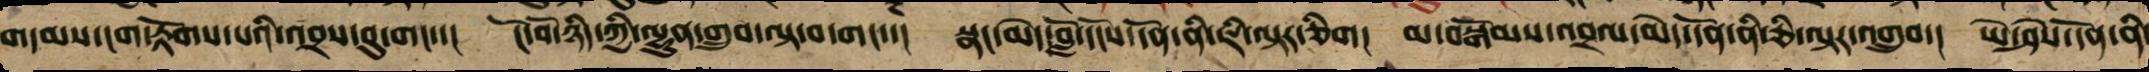གདམས་ངག་རྟོགས་པའི་འབྲས་བུ་གང་་། ངོ་བོ་ཉིད་ཀྱང་ལྷུན་གྲུབ་བལྟ་བ་གང་་། སྣང་མེད་བློ་དངོས་དོན་ནི་ཅི་ལྟར་གཅིག། མ་བསྒོམས་འབྲལ་མེད་དོན་ནི་ཇི་ལྟར་འགྲུབ་། ཡེ་ཤེས་དོན་ནི་
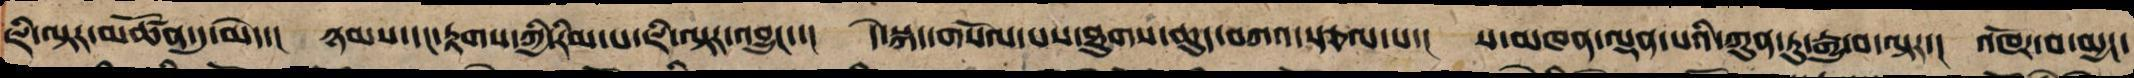ཇི་ལྟར་མཚོན་དུ་མེད་། ཉམས་དང་རྟགས་ཀྱི་རིམ་པ་ཇི་ལྟར་འབྱུང་་། དེ་སྐད་གསོལ་པས་ཐུགས་ཆུད་བཀའ་སྩལ་པ་། ས་མཁན་ལྡན་པའི་ཀུན་ཏུ་རྒྱུ་བ་ལྟར་། འཁོར་བ་མྱང་
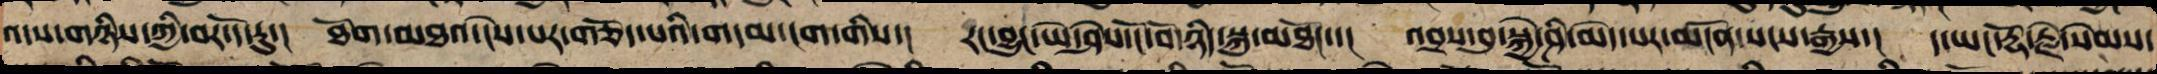འདས་གཉིས་ཀྱི་བར་དོ་རུ་། ཐོག་མཐའ་ངེས་པར་གཅོད་པའི་གདམས་ངག་གིས་། རང་བྱུང་ཡེ་ཤེས་ངོ་བོ་ཉིད་དུ་རྟོགས་། འབྲས་བུ་སྐྱེ་ཤི་མེད་པར་མངོན་སངས་རྒྱས་། ད་ཡང་རྡོ་རྗེ་སེམས་
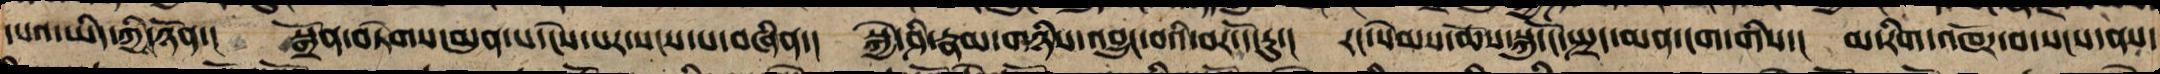དཔའ་ཡིད་ཀྱིས་ཉོན་། སྒྲོན་བཏགས་མུན་པ་ངེས་པར་སངས་པ་བཞིན་། སྐྱེ་ཤི་རྣམ་གཉིས་འབྱུང་བའི་བར་དོ་རུ་། རང་སེམས་ཆོས་སྐུ་ངོ་སྤྲད་མན་ངག་གིས་། མ་རིག་འཁོར་བ་སངས་ནས་
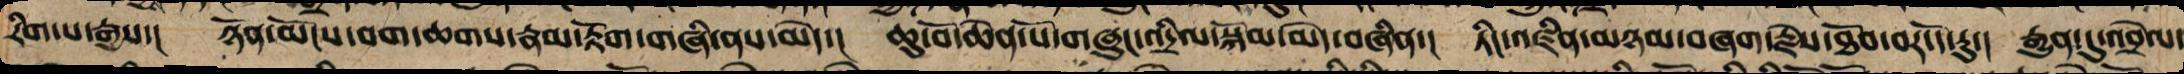རིག་པ་རྒྱས་། ཉོན་མོངས་བག་ཆགས་རྣམ་རྟོག་གཞི་ནས་མེད་། ཆུ་བོ་ཆེན་པོ་གཞུང་འདྲིལ་ཉམས་མེད་བཞིན་། ཏིང་འཛིན་མཉམ་བཞག་རྗེས་ཐོབ་བར་དོ་རུ་། རྒྱུན་དུ་འབྲེལ་
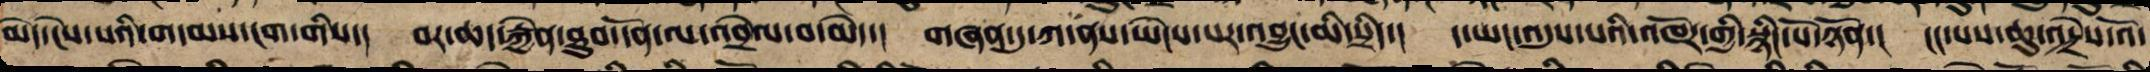མེད་ངེས་པའི་གདམས་ངག་གིས་། བར་ཆད་རྐྱེན་ཐུབ་དོན་ལ་འབྲེལ་བ་མེད་། གཞན་དུ་ཀ་ནས་ཡེངས་པ་འབྱུང་མི་སྲིད་། ད་ཡང་འདུས་པའི་འཁོར་གྱི་སྙིང་པོ་ཉོན་། ངང་པས་ཆུ་འདྲེས་འོ་
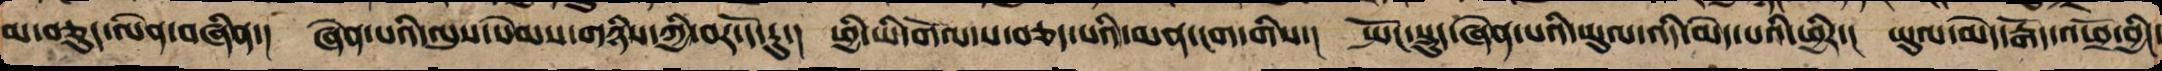མ་བཅུད་ལེན་བཞིན་། ཞེན་པའི་ལུས་སེམས་གཉིས་ཀྱི་བར་དོ་རུ་། ཕྱི་ཡི་གོལ་ས་བཅད་པའི་མན་ངག་གིས་། སྤང་སྡུད་ཞེན་པའི་ཡུལ་འདི་མེད་པའི་ཕྱིར་། ཡུལ་མེད་རྒོད་འཕྲོ་བྱིང་
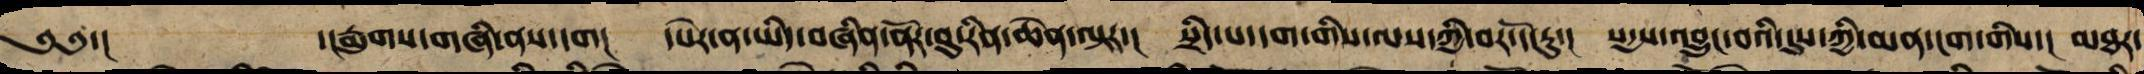༄༅་།  ་།རྨུགས་གཞི་ནས་དག། དཔེར་ན་ཡིད་བཞིན་ནོར་བུ་རིན་ཆེན་ལྟར་། སྲིད་པ་དག་གི་ལས་ཀྱི་བར་དོ་རུ་། སདྱས་འབྱུང་བའི་དུས་ཀྱི་མན་ངག་གིས་། མཐར་
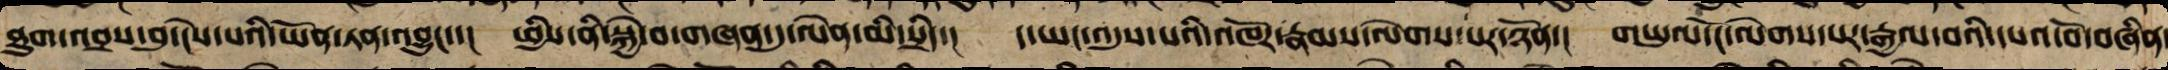ཐུག་འབྲས་བུ་ངེས་པའི་ཡོན་ཏན་འབྱུང་། ཕྱིས་ནི་སྐྱེ་བ་གཞན་དུ་ལེན་མི་སྲིད་། ད་ཡང་འདུས་པའི་འཁོར་རྣམས་ལེགས་པར་ཉོན་། གཡུལ་ངོ་ལེགས་པར་རྒྱལ་བའི་དཔའ་བོ་བཞིན་
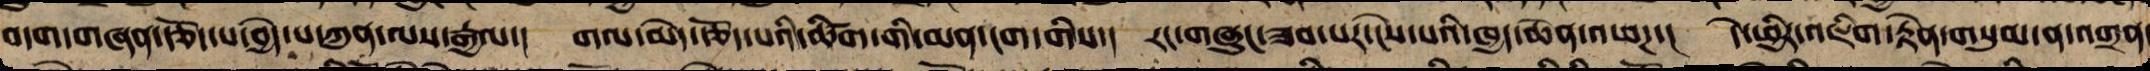བདག་གཞན་རྩོད་པ་བྱེད་པ་ཀུན་ལས་རྒྱལ་། གལ་མེད་རྩོད་པའི་ཚིག་གིས་མན་ངག་གི་། རང་གཞུང་ཟབ་པར་ངེས་པའི་ཁྱད་ཆེན་འཕཌ་། དེ་ཕྱིར་འཇིག་རྟེན་གསུམ་ན་འགྲན་
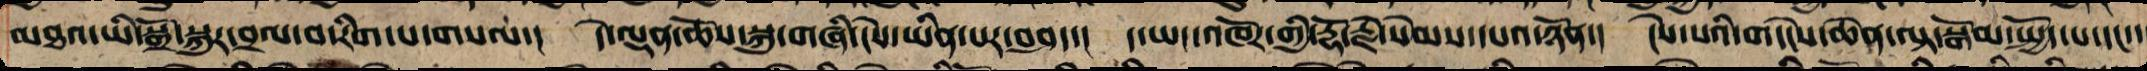མཐའ་ཡི་སྒྲོ་སྐུར་བྲལ་བ་རིག་པ་གསལ་། དེ་ལྡན་ཆོས་སྐུ་གཞི་ངེས་ཡིན་པར་བཤད་། ད་ཡང་འཁོར་གྱི་རྡོ་རྗེ་སེམས་དཔའ་ཉོན་། ངེས་པའི་གདེང་ཆེན་བལྟ་བསྒོམ་སྤྱོད་པ་དང་།
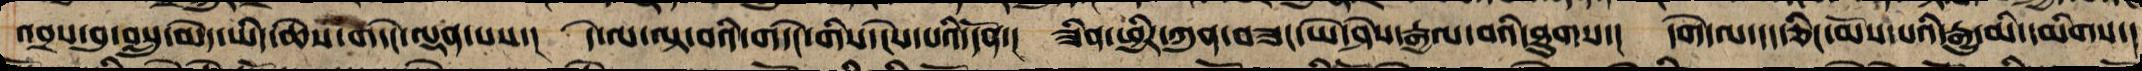འབྲས་བུ་བསྲུ་མེད་ཡིད་ཆེས་གདེང་ལྡན་པས་། དེ་ལ་བལྟ་བའི་གདེང་གིས་ངེས་པའི་དོན་། ཟིན་ཕྱིར་ཀུན་བཟང་ཡེ་ཤེས་རྒྱལ་བའི་ཐུགས་། དགེ་ལ་དད་ཅིང་མོས་པའི་རྒྱུ་མི་དམིགས་།
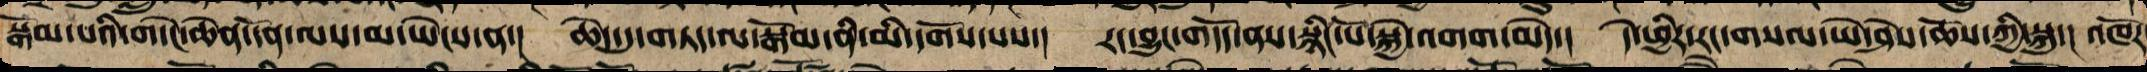སྒོམ་པའི་གདེང་ཆེན་དོན་ལས་མ་ཡེངས་ན་། ཆེད་དུ་གཏད་ལ་སྒོམ་ནི་མི་དགོས་པས་། རང་བྱུང་གདོད་ནས་སྙིང་པོ་སྐྱེ་འགགས་མེད་། དེ་ཕྱིར་རང་གསལ་ཡེ་ཤེས་ཆོས་ཀྱི་སྐུ་། འཁོར
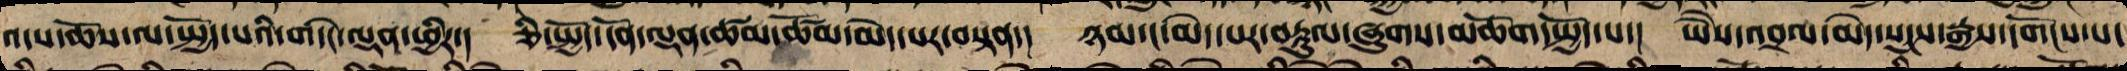འདས་ཆོས་ལ་སྤྱོད་པའི་གདེང་ལྡན་ཕྱིར་། ཅི་སྤྱོད་དོན་ལྡན་ཚམ་ཚོམ་མེད་པར་བསྟན་། ཉམ་ང་མེད་པར་བརྟུལ་ཞུགས་མཆོག་སྤྱོད་པ་། ཡཻས་འབྲལ་མེད་སངས་རྒྱས་དགོངས་པ་
